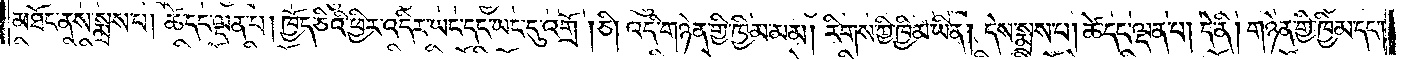པར་དཔྱང་ལ་བཏང་ནས་དེ་ནས་ཆུ་བཅུས་ཏེ་བཏགས་སོ། །བཏགས་ནས་མི་རྒོད་ཐམས་ཅད་ངོམ་པར་བྱས་པ་དང་དེ་དག་གིས་སྨྲས་པ། འཕགས་པ་དག། གལ་ཏེ་ཁྱེད་ཀྱིས་བདག་ཅག་ལ་ཆུ་མ་སྩལ་
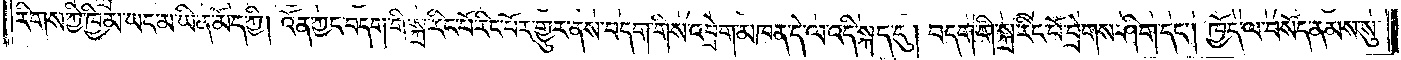བར་གྱུར་ན། བདག་ཅག་གིས་ཁྱེད་ཐ་མལ་བསད་པར་གྱུར་ཏོ། །ཨེ་མ་ཁྱེད་གདང་ཐག་འཆང་བ་མཛོད་ཅིག །དེ་དག་གིས་སྨྲས་པ། ཚེ་དང་ལྡན་པ་དག། དེ་བཞིན་བྱའོ། །མི་རྒོད་དག་གིས་
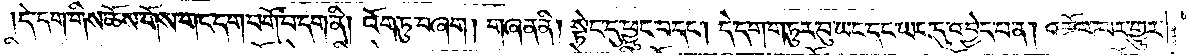ཕྱག་བྱས་ཏེ་དོང་ངོ༌། །དགེ་སློང་དག་གིས་ཀྱང་ཇི་ཙམ་ངོམ་པར་ཆུ་འཐུངས་ནས་རིལ་བ་དང༌། བྱ་མ་བུམ་དག་བཀང་སྟེ་དོང་ནས་དེ་རིམ་གྱིས་མཉན་ཡོད་དུ་ལྷགས་སོ། །
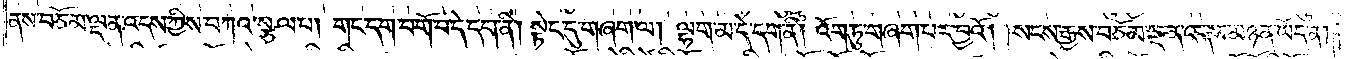དགེ་སློང་དག་གིས་འོངས་པ་ལེགས་སོ། །ཞེས་བྱ་བའི་ཀུན་ཏུ་སྤྱོད་པས་ཀུན་ཏུ་སྤྱད་ནས་ཚེ་དང་ལྡན་པ་དག། ཅི་བདེ་བར་སྤྱད་དམ་ཞེས་དྲིས་པ་དང༌། དེ་དག་གིས་ཇི་ལྟར་གྱུར་པ་སྨྲས་སོ། །སྐབས་
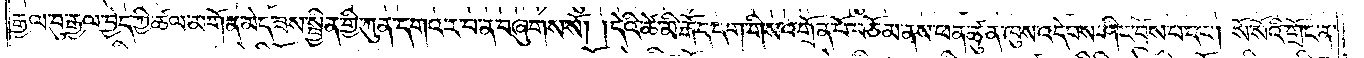དེ། བཅོམ་ལྡན་འདས་ལ་དགེ་སློང་དག་གིས་གསོལ་པ་དང༌། བཅོམ་ལྡན་འདས་ཀྱིས་བཀའ་སྩལ་པ། དེ་ལྟ་བས་ན། གནང་གི། དགེ་སློང་གིས་གདང་ཐག་བཅང་བར་བྱའོ། །བཅོམ་ལྡན་འདས་
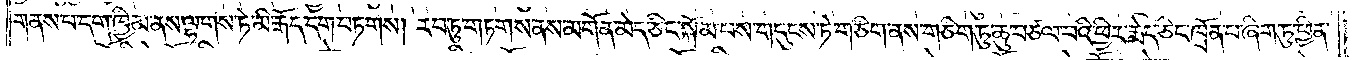ཀྱིས་དགེ་སློང་དག་གིས་གདང་ཐག་བཅང་བར་བྱའོ། །ཞེས་གསུངས་པ་དང༌། དགེ་སློང་རྣམས་ཀྱིས་ཤིན་ཏུ་རིང་པོ་དག་འཆང་ནས་བཅོམ་ལྡན་འདས་ཀྱིས་བཀའ་སྩལ་པ། ཤིན་ཏུ་རིང་པོ་
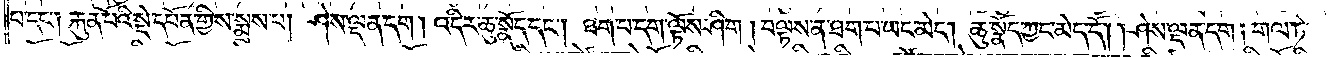ཡང་བཅང་བར་མི་བྱའོ། །དེ་དག་གིས་ཤིན་ཏུ་ཐུང་ངུ་དག་བཅངས་ནས་བཅོམ་ལྡན་འདས་ཀྱིས་བཀའ་སྩལ་པ། ཤིན་ཏུ་ཐུང་ངུ་ཡང་བཅང་བར་མི་བྱའོ། །འོན་ཀྱང་གདང་ཐག་གསུམ་བཅང་
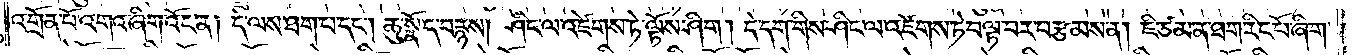བར་བྱ་སྟེ། རིང་པོ་དང༌། འབྲིང་དང༌། ཐུང་ངུའོ། །རིང་པོ་ནི། ཁྲུ་བརྒྱ་ལྔ་བཅུའོ། །ཐུང་ངུ་ནི། ཁྲུ་བརྒྱའོ། །དེ་དག་གི་བར་ནི། འབྲིང་ངོ༌། །བཅོམ་ལྡན་འདས་ཀྱིས་གདང་ཐག་གསུམ་བཅང་བར་
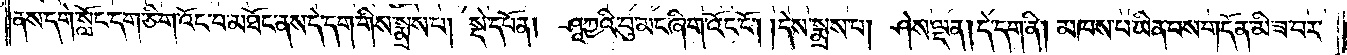བྱའོ། །ཞེས་གསུངས་པ་དང༌། དགེ་སློང་རྣམས་འཆད་བར་གྱུར་ཏེ། ཡུལ་གཞན་ཞིག་ན་ཆུ་མོད་པ་དེར་ཡང་དགེ་སློང་དག་གདང་ཐག་ཁྱེར་ཏེ་དོང་ནས་བཅོམ་ལྡན་འདས་ཀྱིས་བཀའ་སྩལ་
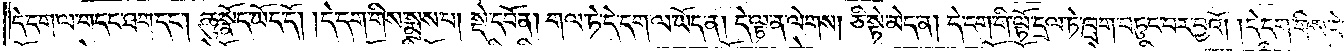པ། གདང་ཐག་ནི། ཡུལ་རྣམས་དང་སྦྱར་ཞིང་བཅང་བར་བྱའོ།    །སྡོམ་ནི། སྤུ་གྲི་རྡར་དང་སེན་གྲི་དང༌། །སྨད་ཚེར་དང་ནི་སྔས་ཤིང་དང༌། །བད་ཚའི་རིགས་ལས་འཇིམ་པ་ནི། །དྲི་ཡིས་ཡོངས་སུ་
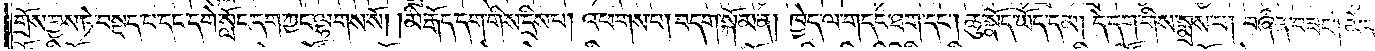བསྒོས་པའོ། །སངས་རྒྱས་བཅོམ་ལྡན་འདས་མཉན་ཡོད་ན་རྒྱལ་བུ་རྒྱལ་བྱེད་ཀྱི་ཚལ་མགོན་མེད་ཟས་སྦྱིན་གྱི་ཀུན་དགའ་ར་བ་ན་བཞུགས་སོ། །དགེ་སློང་ཞིག་གི་སྐྲ་རིང་པོ་རིང་པོར་གྱུར་ཏེ་དེ་འབྲེག་
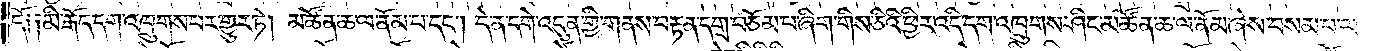མཁན་གྱི་གན་དུ་སོང་ནས་བཞིན་བཟང༌། བདག་གི་སྐྲ་བྲེགས་ཤིག །དེས་བསམ་པ། ཤཱཀྱའི་བུའི་དགེ་སྦྱོང་འདི་དག་ནི། ནན་ཆེ་སྟེ་རྔན་པ་མེད་པར་ལས་བྱེད་དུ་འཇུག་པས། གལ་ཏེ་འདིའི་སྐྲ་
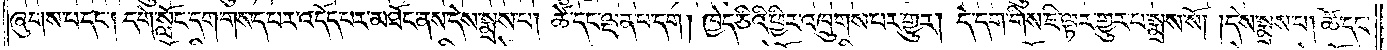ཞུགས་པ་དང་། དགེ་སློང་དག་གསད་པར་འདོད་པར་མཐོང་ནས་དེས་སྨྲས་པ། ཚེ་དང་ལྡན་པ་དག ། ཁྱེད་ཅིའི་ཕྱིར་འཁྲུགས་པར་གྱུར། དེ་དག་གིས་ཇི་ལྟར་གྱུར་པ་སྨྲས་སོ། ། དེས་སྨྲས་པ། ཚེ་དང་
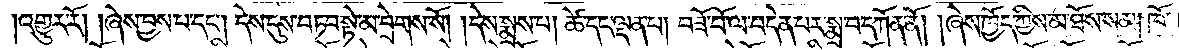འགྱུར་རོ། །ཞེས་བྱས་པ་དང༌། དེས་དུས་བཏབ་སྟེ་མ་བྲེགས་སོ། །དེས་སྨྲས་པ། ཚེ་དང་ལྡན་པ། བཟོ་བོ་ལ་བདེན་པར་སྨྲ་བ་དཀོན་ནོ། །ཞེས་ཁྱོད་ཀྱིས་མ་ཐོས་སམ། ཁོ་
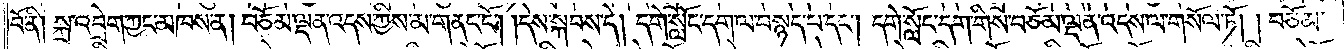བོ་ནི། སྐྲ་འབྲེག་ཀྱང་མཁས་ན། བཅོམ་ལྡན་འདས་ཀྱིས་མ་གནང་ངོ༌། །དེས་སྐབས་དེ། དགེ་སློང་དག་ལ་བསྙད་པ་དང༌། དགེ་སློང་དག་གིས་བཅོམ་ལྡན་འདས་ལ་གསོལ་ཏོ། །བཅོམ་
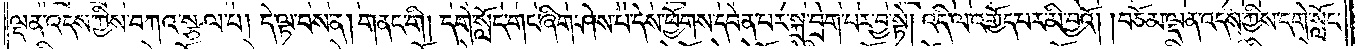ལྡན་འདས་ཀྱིས་བཀའ་སྩལ་པ། དེ་ལྟ་བས་ན། གནང་གི། དགེ་སློང་གང་ཞིག་ཤེས་པ་དེས་ཕྱོགས་དབེན་པར་སྐྲ་བྲེག་པར་བྱ་སྟེ། འདི་ལ་འགྱོད་པར་མི་བྱའོ། །བཅོམ་ལྡན་འདས་ཀྱིས་དགེ་སློང་
